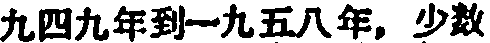九四九年到一九五八年，少数
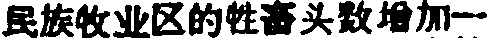民族牧业区的牲畜头数增加一
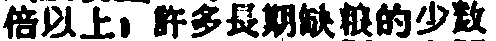倍以上，許多長期缺粮的少数
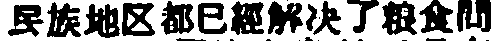民族地区都已經解決了粮食問
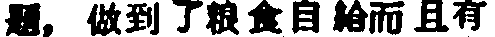題，做到了粮食自給而且有
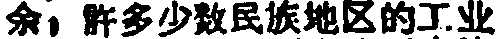余，許多少数民族地区的工业
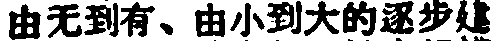由无到有、由小到大的逐步建
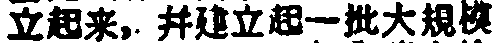立起来，并建立起一批大規模
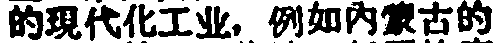的現代化工业，例如內蒙古的
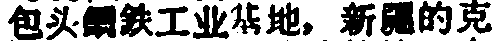包头鋼鉄工业基地，新疆的克
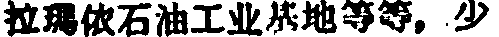拉瑪依石油工业基地等等。少
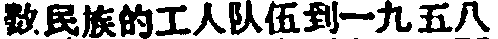数民族的工人队伍到一九五八
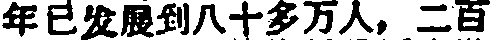年已发展到八十多万人，二百
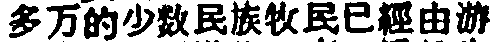多万的少数民族牧民已經由游
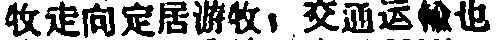牧走向定居游牧；交通运輸也
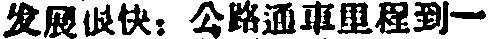发展很快，公路通車里程到一
